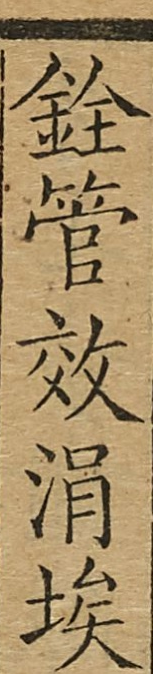銓管效涓埃
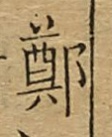鄭
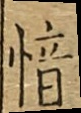愔
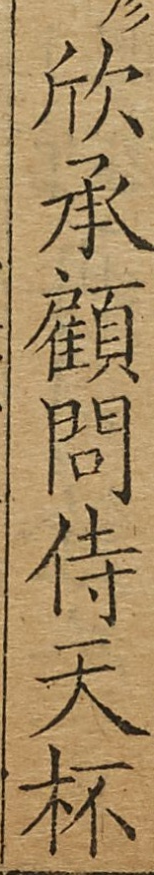欣承顧問侍天杯
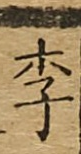李
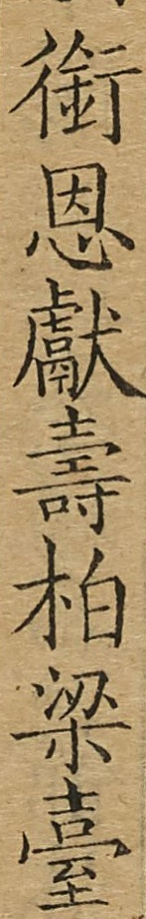銜恩獻壽柏梁臺
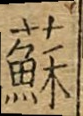蘇
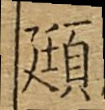庭
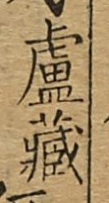盧藏
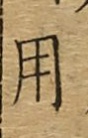用
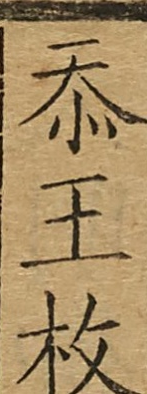忝王枚
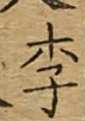李
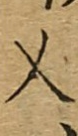乂
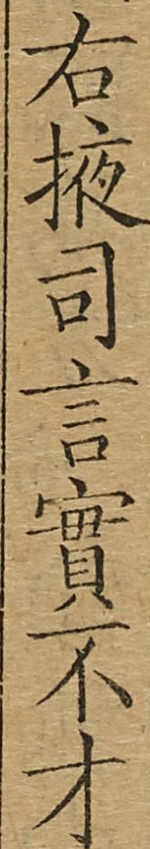右掖司言實不才
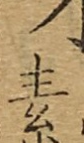素
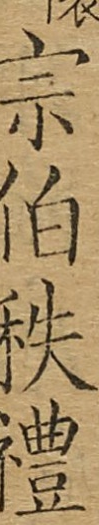宗伯秩禮
